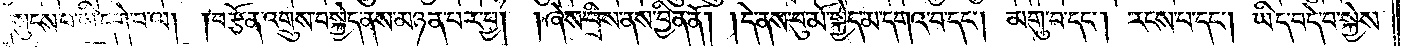གསུངས་པ་ཡི་དགེ་བ་ལ། །བརྩོན་འགྲུས་བསྐྱེད་ནས་མཉན་པར་བྱ། །ཞེས་བྲིས་ནས་བྱིན་ནོ། །དེ་ནས་བུ་མོ་སྐྱེད་མ་དགའ་བ་དང༌། མགུ་བ་དང༌། རངས་པ་དང༌། ཡིད་བདེ་བ་སྐྱེས་
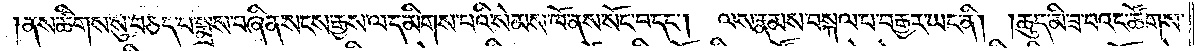ནས་ཚིགས་སུ་བཅད་པ་སྨྲས་བཞིན་སངས་རྒྱས་ལ་དམིགས་པའི་སེམས་ཁོ་ནས་སོང་བ་དང༌། ལས་རྣམས་བསྐལ་པ་བརྒྱར་ཡང་ནི། །ཆུད་མི་ཟ་བའང་ཚོགས་
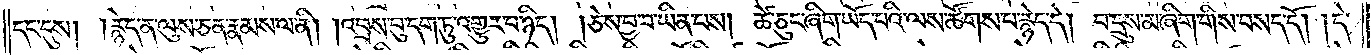དང་དུས། །རྙེད་ན་ལུས་ཅན་རྣམས་ལ་ནི། །འབྲས་བུ་དག་ཏུ་འགྱུར་བ་ཉིད། །ཅེས་བྱ་བ་ཡིན་པས། ཚེ་ཅུང་ཞིག་ཡོད་པའི་ལས་ཚོགས་པ་རྙེད་དེ། བ་དྲུས་མ་ཞིག་གིས་བསད་དོ། །དེ་
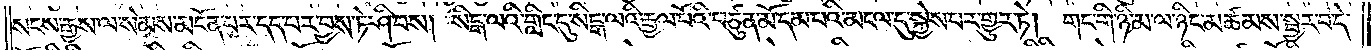སངས་རྒྱས་ལ་སེམས་མངོན་པར་དད་པར་བྱས་ཏེ་ཤི་བས། སིངྒ་ལའི་གླིང་དུ་སིངྒ་ལའི་རྒྱལ་པོའི་བཙུན་མོ་དམ་བའི་མངལ་དུ་སྐྱེས་པར་གྱུར་ཏེ། གང་གི་ཉི་མ་ལ་ཉིང་མཚམས་སྦྱར་བ་དེ་
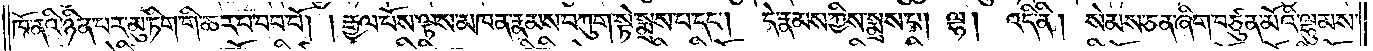ཁོ་ནའི་ཉིན་པར་མུ་ཏིག་གི་ཆར་པ་བབ་བོ། །རྒྱལ་པོས་ལྟས་མཁན་རྣམས་བཀུག་སྟེ་སྨྲས་པ་དང༌། དེ་རྣམས་ཀྱིས་སྨྲས་པ། ལྷ། འདི་ནི། སེམས་ཅན་ཞིག་བཙུན་མོའི་ལྷུམས་
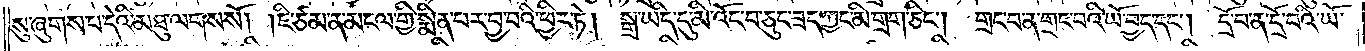སུ་ཞུགས་པ་དེའི་མཐུ་ལགས་སོ། །ཇི་ཙམ་ན་མངལ་གྱི་སྨིན་པར་བྱ་བའི་ཕྱིར་ཏེ། སྒྲ་ཡིད་དུ་མི་འོང་བ་ཅུང་ཟད་ཀྱང་མི་གྲག་ཅིང༌། གྲང་བ་ན་གྲང་བའི་ཡོ་བྱད་དང༌། དྲོ་བ་ན་དྲོ་བའི་ཡོ་
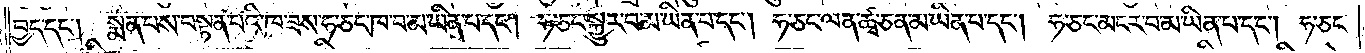བྱད་དང༌། སྨན་པས་བསྟན་པའི་ཁ་ཟས་ཧ་ཅང་ཁ་བ་མ་ཡིན་པ་དང༌། ཧ་ཅང་སྐྱུར་བ་མ་ཡིན་པ་དང༌། ཧ་ཅང་ལན་ཚྭ་ཅན་མ་ཡིན་པ་དང༌། ཧ་ཅང་མངར་བ་མ་ཡིན་པ་དང༌། ཧ་ཅང་
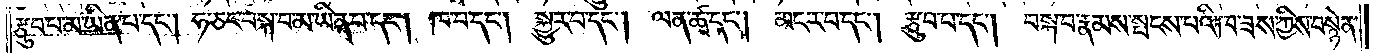རྩུབ་པ་མ་ཡིན་པ་དང༌། ཧ་ཅང་བསྐ་བ་མ་ཡིན་པ་དང༌། ཁ་བ་དང༌། སྐྱུར་བ་དང༌། ལན་ཚྭ་དང༌། མངར་བ་དང༌། རྩུབ་པ་དང༌། བསྐ་བ་རྣམས་སྤངས་པའི་ཁ་ཟས་ཀྱིས་བསྙེན་
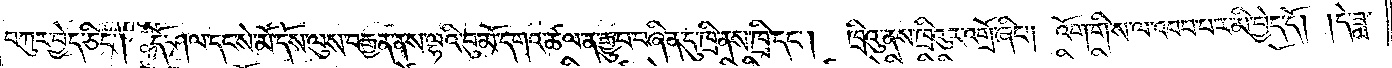བཀུར་བྱེད་ཅིང༌། དོ་ཤལ་དང་སེ་མོ་དོས་ལུས་བརྒྱན་ནས་ལྷའི་བུ་མོ་དགའ་ཚལ་ན་རྒྱུ་བ་བཞིན་དུ་ཁྲི་ནས་ཁྲི་དང༌། ཁྲིའུ་ནས་ཁྲིའུར་འགྲོ་ཞིང༌། འོག་གི་ས་ལ་འབབ་པར་མི་བྱེད་དོ། །དེ་ཟླ་
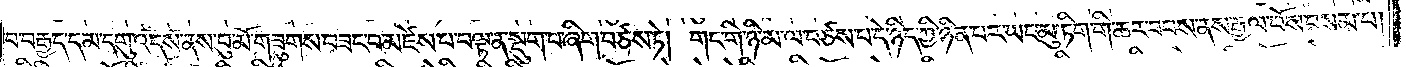བ་བརྒྱད་དམ་དགུ་འདས་ནས་བུ་མོ་གཟུགས་བཟང་བ་མཛེས་པ་བལྟ་ན་སྡུག་པ་ཞིག་བཙས་ཏེ། གང་གི་ཉི་མ་ལ་བཙས་པ་དེ་ཉིད་ཀྱི་ཉིན་པར་ཡང་མུ་ཏིག་གི་ཆར་བབས་ནས་རྒྱལ་པོས་བསམ་པ།
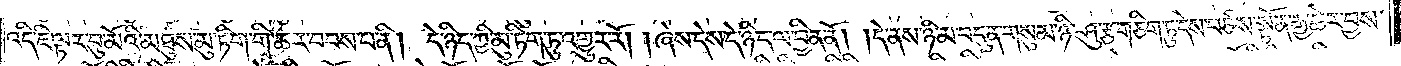འདི་ཇི་ལྟར་བུ་མོའི་མཐུས་མུ་ཏིག་གི་ཆར་བབས་པ་ནི། དེ་ཉིད་ཀྱི་མུ་ཏིག་ཏུ་འགྱུར་རོ། །ཞེས་དེས་དེ་ཉིད་ལ་བྱིན་ནོ། །དེ་ནས་ཉི་མ་བདུན་གསུམ་ཉི་ཤུ་རྩ་གཅིག་ཏུ་དེས་བཙས་སྟོན་རྒྱ་ཆེར་བྱས་
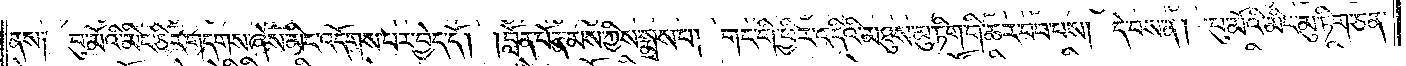ནས༑ བུ་མོའི་མིང་ཅིར་གདགས་ཞེས་མིང་འདོགས་པར་བྱེད་དོ། །བློན་པོ་རྣམས་ཀྱིས་སྨྲས་པ། གང་གི་ཕྱིར་འདིའི་མཐུས་མུ་ཏིག་གི་ཆར་བབ་པས། དེ་བས་ན། བུ་མོའི་མིང་མུ་ཏིག་ཅན་
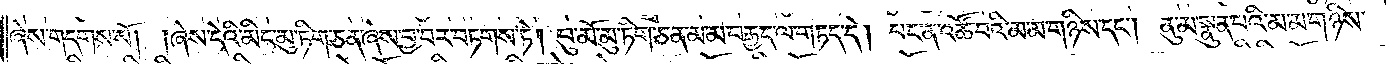ཞེས་གདགས་སོ། །ཞེས་དེའི་མིང་མུ་ཏིག་ཅན་ཞེས་བྱ་བར་བཏགས་ཏེ། བུ་མོ་མུ་ཏིག་ཅན་མ་མ་བརྒྱད་ལ་གཏད་དེ། པང་ན་འཚོ་བའི་མ་མ་གཉིས་དང༌། ནུ་མ་སྣུན་པའི་མ་མ་གཉིས་
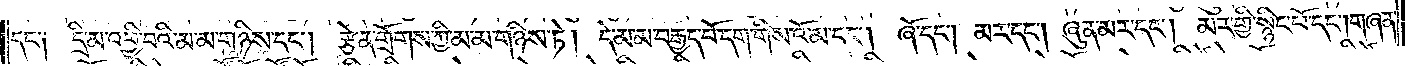དང་༑ དྲི་མ་འཕྱི་བའི་མ་མ་གཉིས་དང༌། རྩེན་གྲོགས་ཀྱི་མ་མ་གཉིས་ཏེ། དེ་མ་མ་བརྒྱད་པོ་དག་གིས་འོ་མ་དང༌། ཞོ་དང༌། མར་དང༌། ཞུན་མར་དང༌། མར་གྱི་སྙིང་པོ་དང༌། གཞན་
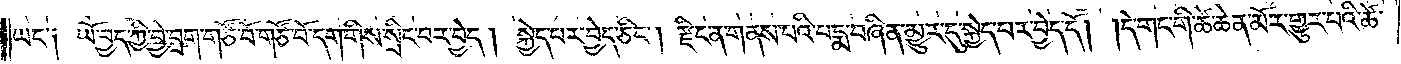ཡང་༑ ཡོ་བྱད་ཀྱི་བྱེ་བྲག་གཙོ་བོ་གཙོ་བོ་དག་གིས་སྲིང་བར་བྱེད། སྐྱེད་པར་བྱེད་ཅིང༌། རྫིང་ན་གནས་པའི་པདྨ་བཞིན་མྱུར་དུ་སྐྱེད་པར་བྱེད་དོ། །དེ་གང་གི་ཚེ་ཆེན་མོར་གྱུར་པའི་ཚེ་
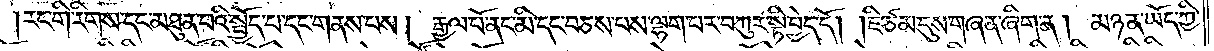།རང་གི་རིགས་དང་མཐུན་པའི་སྤྱོད་པ་དང་གནས་པས། རྒྱལ་པོ་ནང་མི་དང་བཅས་པས་ལྷག་པར་བཀུར་སྟི་བྱེད་དོ། །ཇི་ཙམ་དུས་གཞན་ཞིག་ན། མཉན་ཡོད་ཀྱི་
